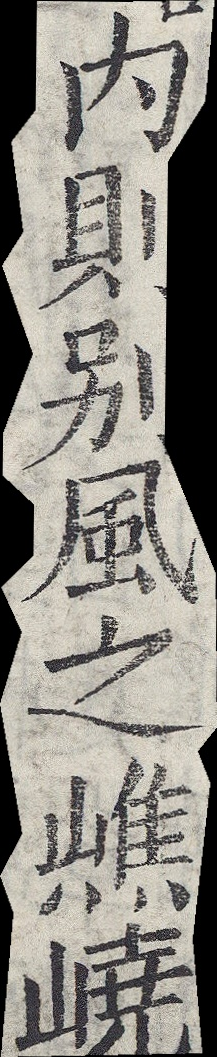內則別風之嶕嶢
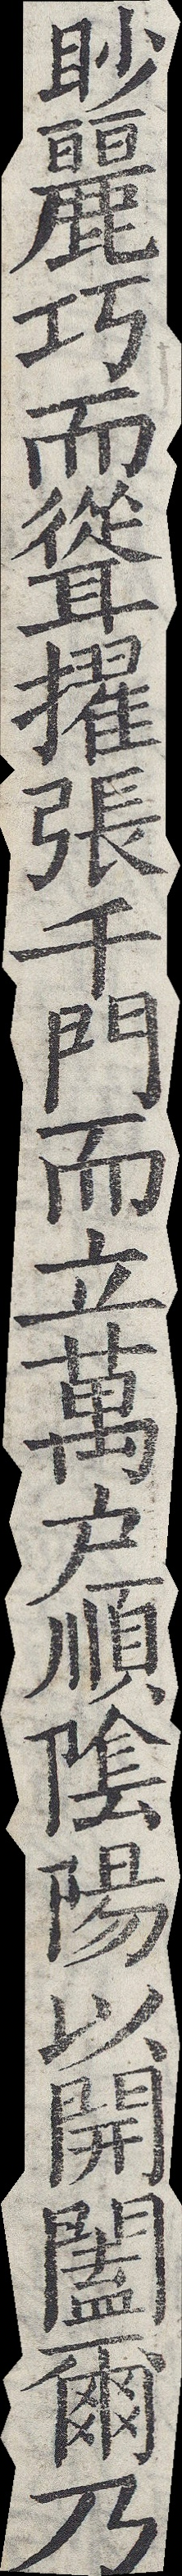眇麗巧而聳擢張千門而立萬戶順陰陽以開闔爾乃
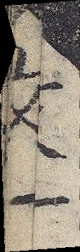文一
